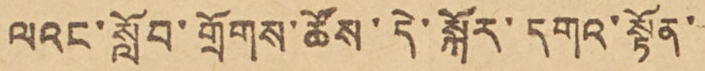ལའང་སློབ་གྲོགས་ཚོས་དེ་སྐོར་དགའ་སྟོན་
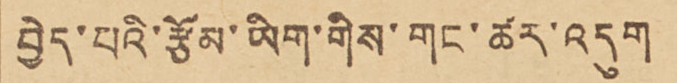བྱེད་པའི་རྩོམ་ཡིག་གིས་གང་ཚར་འདུག
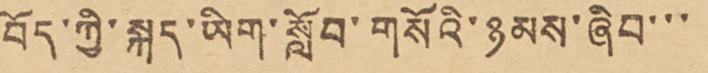བོད་ཀྱི་སྐད་ཡིག་སློབ་གསོའི་ཉམས་ཞིབ་་་
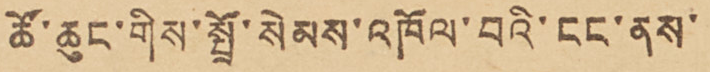ཚོ་ཆུང་གིས་སྤྲོ་སེམས་འཁོལ་བའི་ངང་ནས་
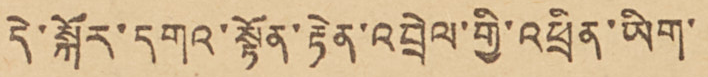དེ་སྐོར་དགའ་སྟོན་རྟེན་འབྲེལ་གྱི་འཕྲིན་ཡིག་
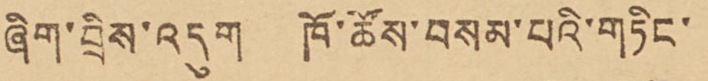ཞིག་བྲིས་འདུག ཁོ་ཚོས་བསམ་པའི་གཏིང་
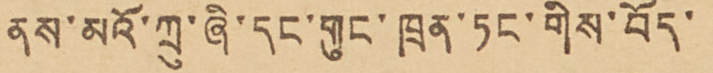ནས་མའོ་ཀྲུ་ཞི་དང་གུང་ཁྲན་ཏང་གིས་བོད་
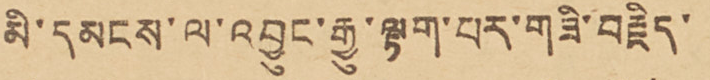མི་དམངས་ལ་འབྱུང་རྒྱུ་ལྟག་པར་གཟི་བརྗིད་
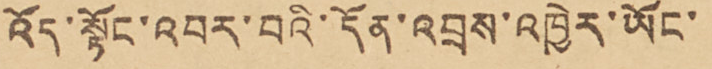འོད་སྟོང་འབར་བའི་དོན་འབྲས་འཁྱེར་ཡོང་
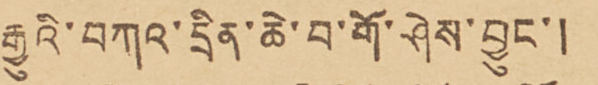རྒྱུའི་བཀའ་དྲིན་ཆེ་བ་གོ་ཤེས་བྱུང་།
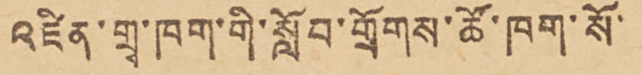འཛིན་གྲྭ་ཁག་གི་སློབ་གྲོགས་ཚོ་ཁག་སོ་
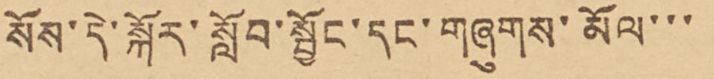སོས་དེ་སྐོར་སློབ་སྦྱོང་དང་གཞུགས་མོལ་་་
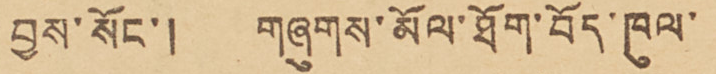བྱས་སོང་། གཞུགས་མོལ་ཐོག་བོད་ཁུལ་
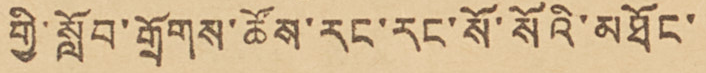གྱི་སློབ་གྲོགས་སྟཧོས་རང་རང་སོ་སོའི་མཐོང་
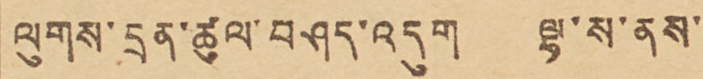ལུགས་དྲན་ཚུལ་བཤད་འདུག ལྷ་ས་ནས་
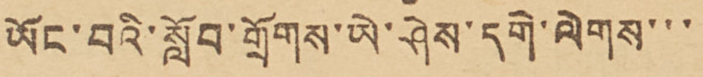ཡོང་བའི་སློབ་གྲོགས་ཡེ་ཤེས་དགེ་ལེགས་་་
